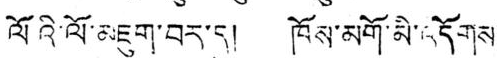ལོའི་ལོ་མཇུག་བར་དུ། ཁོས་མགོ་མི་འདོགས་
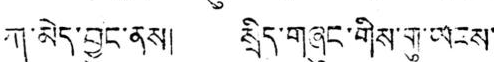ཀ་མེད་བྱུང་ནས། སྲིད་གཞུང་གིས་གུ་ཡངས་
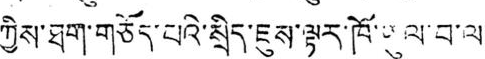ཀྱིས་ཐག་གཅོད་པའི་སྲིད་ཇུས་ལྟར་ཁོ་ཡུལ་བ་ལ་
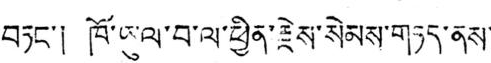བཏང་། ཁོ་ཡུལ་བ་ལ་ཕྱིན་རྗེས་སེམས་གཏད་ནས་
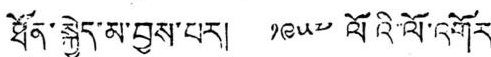ཐོན་སྐྱེད་མ་བྱས་པར། ༡༩༥༧ ལོའི་ལོ་འགོར་
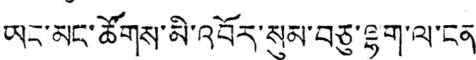ཡང་མང་ཚོགས་མི་འབོར་སུམ་བཅུ་ལྷག་ལ་ངན་་
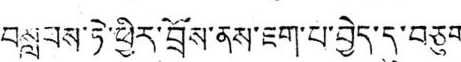བསླབས་ཏེ་ཕྱིར་བྲོས་ནས་ཇག་པ་བྱེད་དུ་བཅུག
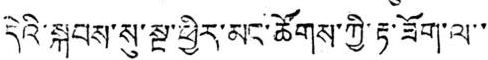དེའི་སྐབས་སུ་སྔ་ཕྱིར་མང་ཚོགས་ཀྱི་རྟ་ཟོག་ལ་་་
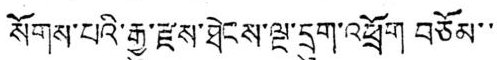སོགས་པའི་རྒྱུ་རྫས་ཐེངས་ལྔ་དྲུག་འཕྲོག་བཅོམ་་་
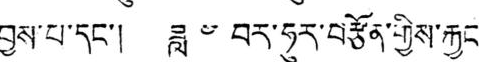བྱས་པ་དང་། ཟླ ༤ བར་ཧུར་བརྩོན་གྱིས་རྐྱང་
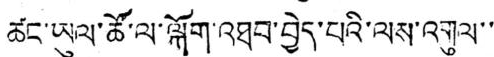ཚང་ཡུལ་ཚོ་ལ་ལྐོག་འཐབ་བྱེད་པའི་ལས་འགུལ་་་
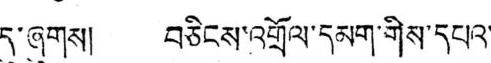དུ་ཞུགས། བཅིངས་འགྲོལ་དམག་གིས་དཔའ་
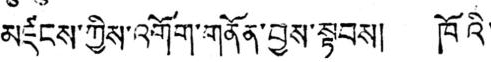མཛངས་ཀྱིས་འགོག་གནོན་བྱས་སྟབས། ཁོའི་
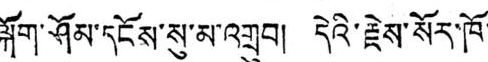ལྐོག་ཤོམ་དངོས་སུ་མ་འགྲུབ། དེའི་རྗེས་སོར་ཁོ་
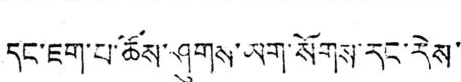དང་ཇག་པ་ཆོས་ཤུགས་ཡག་སོགས་རང་རེས་
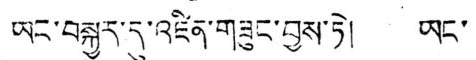ཡང་བསྐྱར་དུ་འཛིན་གཟུང་བྱས་ཏེ། ཡང་
